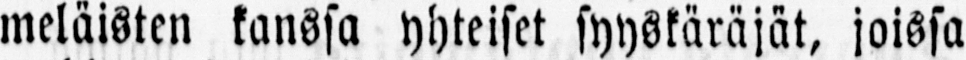meläisten kanssa yhteiset syyskäräjät, joissa
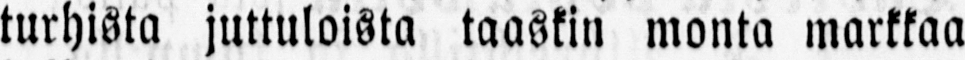turhista juttuloista taaskin monta markkaa
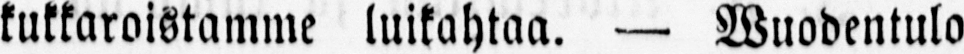kukkaroistamme luikahtaa. — Wuodentulo
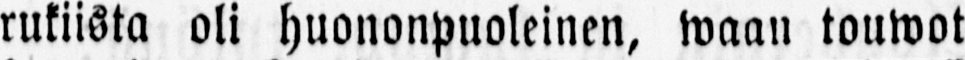rukiista oli huononpuoleinen, waan touwot
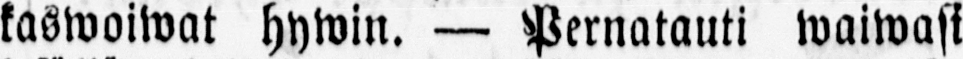kaswoiwat hywin. — Pernatauti waiwasi
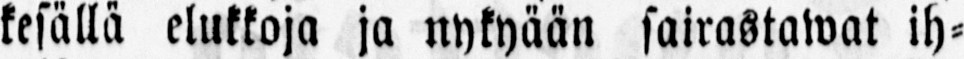kesällä elukkoja ja nykyään sairastawat ih-
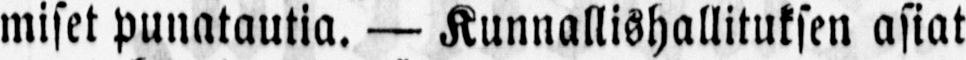miset punatautia. — Kunnallishallituksen asiat
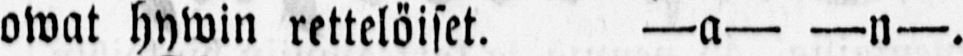owat hywin rettelöiset. —a— —n—.
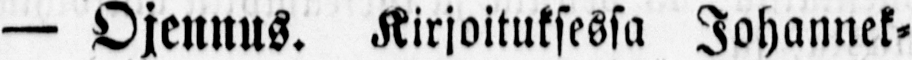— Ojennus. Kirjoituksessa Johannek-
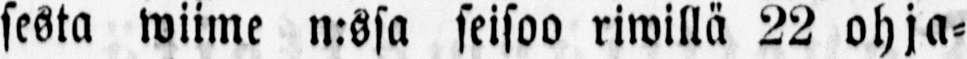sesta wiime n:ssa seisoo riwillä 22 ohja-
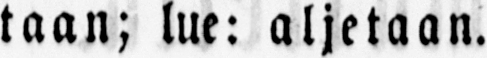taan; lue: aljetaan.
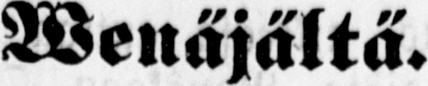Wenäjältä .
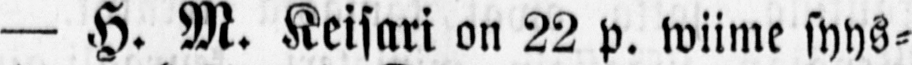— H. M. Keisari on 22 p. wiime syys-
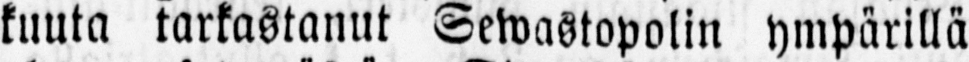kuuta tarkastanut Sewastopolin ympärillä
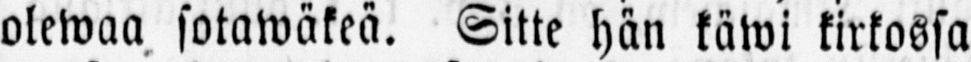olewaa sotawäkeä. Sitte hän käwi kirkossa
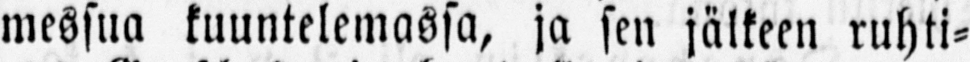messua kuuntelemassa, ja sen jälkeen ruhti-
